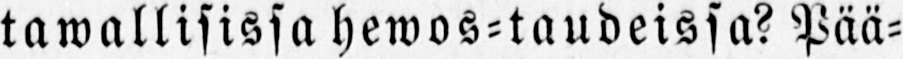tuwallisissa hewos-taudeissa? Pää-
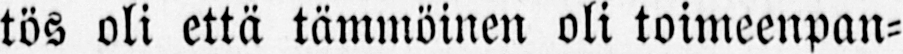tös oli että tämmöinen oli toimeenpan-
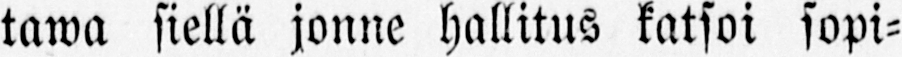tavia siellä jonne hallitus katsoi sopi-
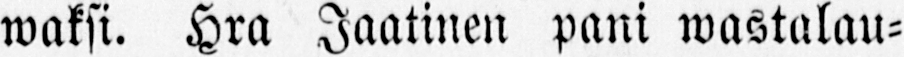waksi. Hra Jaatinen pani wastalau-
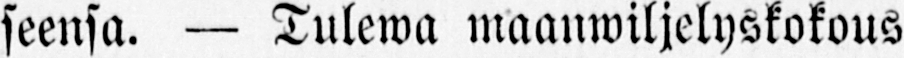seensa. — Tulewa maanwiljelyskokous
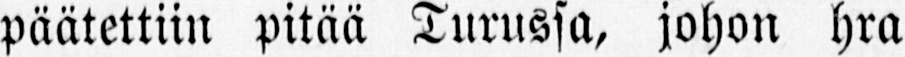päätettiin pitää Turussa, johon hra
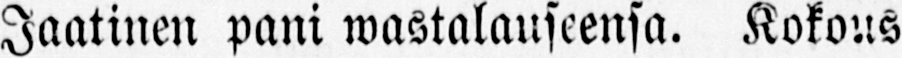Jaatinen pani wastalauseensa. Kokous
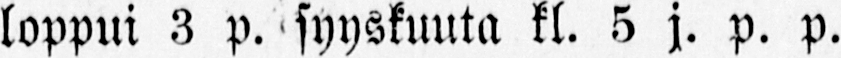loppui 3 p. syyskuuta kl. 5 j. p. p.
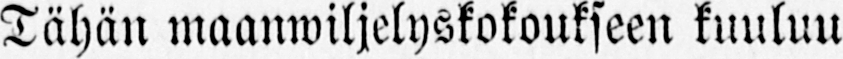Tähän maanwiljelyskokoukseen kuuluu
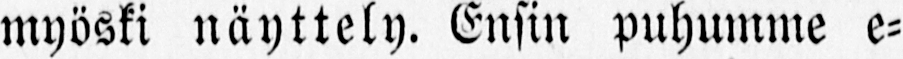myöski näyttely. Ensin puhumme e-
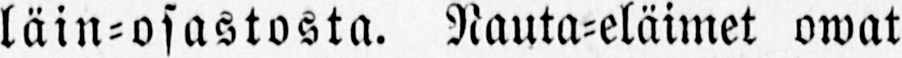läin-osastosta. Nauta-eläimet owat
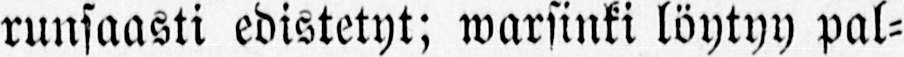runsaasti edistetyt; warsinki löytyy pal-
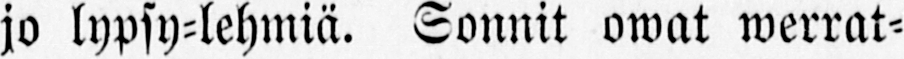jo lypsy-lehmiä. Sonnit owat werrat-
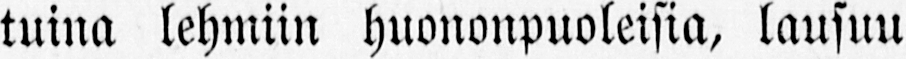tuina lehmiin huononpuoleisia, lausuu
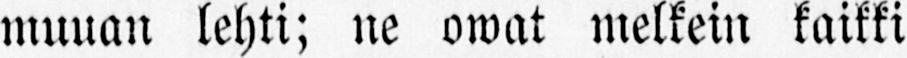muuan lehti; ne owat melkein kaikki
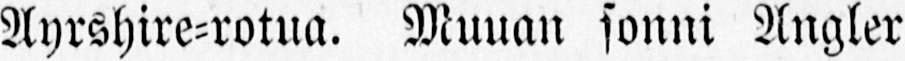Ayrshire-rotua. Muuan sonni Angler
